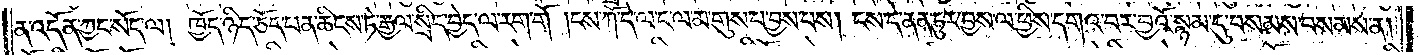ན་འདོན་ཀྱང་སོད་ལ། ཁྱོད་ཉིད་ཅོད་པན་ཆིངས་ཏེ་རྒྱལ་སྲིད་བྱེད་ལ་རག་གོ །ངས་ཀོ་དེ་ལ་ང་ལ་མ་གུས་པ་བྱས་པས། ངས་དེ་ནན་ཏུར་བྱས་ལ་ཕྱིས་དགའ་བར་བྱའོ་སྙམ་དུ་བསམས་བསམས་ན།
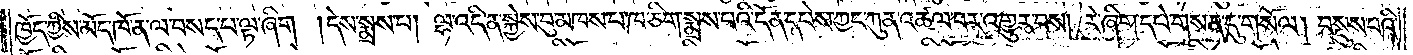ཁྱོད་ཀྱིས་མོད་ཁོ་ན་ལ་བསད་པ་ལྟ་ཞིག །དེས་སྨྲས་པ། ལྷ་འདི་ན་སྐྱེས་བུ་མཁས་པ་ཁ་ཅིག་སྨྲས་པའི་དོན་དཔེས་ཀྱང་ཀུན་འཚལ་བར་འགྱུར་བས། རེ་ཞིག་དཔེ་གསན་དུ་གསོལ། བསྡུས་པའི་
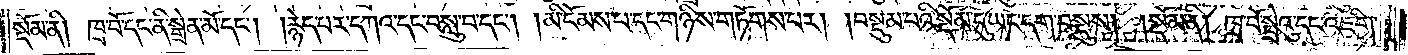སྡོམ་ནི། ཁྲ་བོ་དང་ནི་སྒྲེན་མོ་དང༌། །རྙེད་པར་དཀའ་དང་བསླུ་བ་དང༌། །མི་ངོམས་པ་དང་གཉིས་གཏོགས་པར། །བསྡུམ་པའི་སྡོམ་དུ་ཡང་དག་བསྡུས། །སྡོམ་ནི། ཁྲ་བོ་སྤྲེའུ་དང་འཇིག་
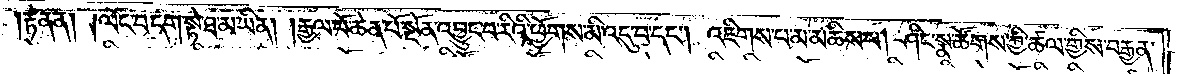རྟེན་ན། །ལོང་བདག་སྟེ་ཐ་མ་ཡིན། །རྒྱལ་པོ་ཆེན་པོ་སྔོན་འབྱུང་བ་རིའི་ཕྱོགས་མི་འདུ་བ་དང༌། འཇིགས་པ་མ་མཆིས་པ། ཤིང་སྣ་ཚོགས་ཀྱི་ཚལ་གྱིས་བརྒྱན་
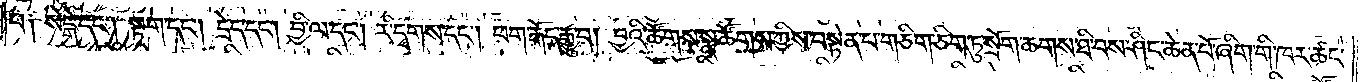པ༑ སེངྒེ་དང༌། སྟག་དང༌། དྲེད་དང༌། བྱི་ལ་དང༌། རི་དྭགས་དང༌། ཕག་རྒོད་རྒྱུ་བ། བྱའི་ཚོགས་སྣ་ཚོགས་ཀྱིས་བསྟེན་པ་གཅིག་ཅིག་ཏུ་སྲོག་ཆགས་ཐི་བས་ཤིང་ཆེན་པོ་ཞིག་གི་ཁར་ཚང་
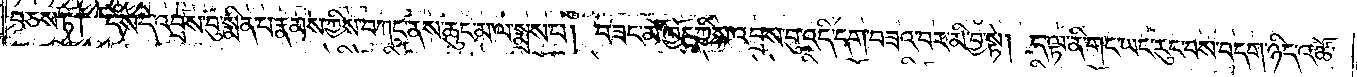བཅས་ཏེ། དེས་དེ་འབྲས་བུ་སྨིན་པ་རྣམས་ཀྱིས་བཀང་ནས་ཆུང་མ་ལ་སྨྲས་པ། བཟང་མོ་ཁྱོད་ཀྱིས་འབྲས་བུ་འདི་དག་བཟའ་བར་མི་བྱ་སྟེ། ད་ལྟ་ནི་གང་ཡང་རུང་བས་བདག་ཉིད་འཚོ་
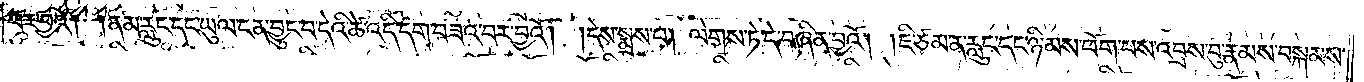བར་བྱའོ། །ནམ་རླུང་དང་ཡུལ་ངན་བྱུང་བ་དེའི་ཚེ་འདི་དག་བཟའ་བར་བྱའོ། །དེས་སྨྲས་པ། ལེགས་ཏེ་དེ་བཞིན་བྱའོ། །ཇི་ཙམ་ན་རླུང་དང་ཉི་མས་ཕོག་པས་འབྲས་བུ་རྣམས་བསྐམས་
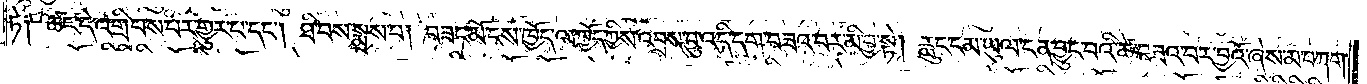ཏེ༑ ཚང་དེ་འགྲིབས་པར་གྱུར་པ་དང༌། ཐི་བས་སྨྲས་པ། བཟང་མོ་ངས་ཁྱོད་ལ་ཁྱོད་ཀྱིས་འབྲས་བུ་འདི་དག་བཟའ་བར་མི་བྱ་སྟེ། རླུང་ངམ་ཡུལ་ངན་བྱུང་བའི་ཚེ་བཟའ་བར་བྱའོ་ཞེས་མ་བཀག་
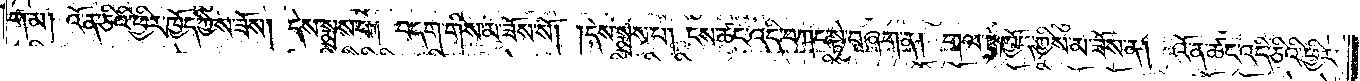གམ། འོ་ན་ཅིའི་ཕྱིར་ཁྱོད་ཀྱིས་ཟོས། དེས་སྨྲས་པ། བདག་གིས་མ་ཟོས་སོ། །དེས་སྨྲས་པ། ངས་ཚང་འདི་བཀང་སྟེ་བཞག་ན། གལ་ཏེ་ཁྱོད་ཀྱིས་མ་ཟོས་ན། འོ་ན་ཚང་འདི་ཅིའི་ཕྱིར་
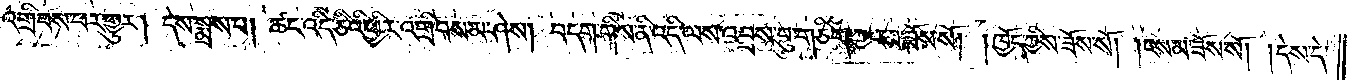འགྲིབས་པར་གྱུར། དེས་སྨྲས་པ། ཚང་འདི་ཅིའི་ཕྱིར་འགྲིབས་མ་ཤེས། བདག་གིས་ནི་འདི་ལས་འབྲས་བུ་གཅིག་ཀྱང་མ་ཟོས་སོ། །ཁྱོད་ཀྱིས་ཟོས་སོ། །ངས་མ་ཟོས་སོ། །དེས་དེ་
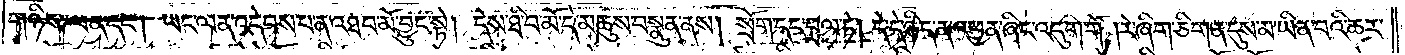གཉིས་ལན་དང༌། ཡང་ལན་འདེབས་པ་ན་འཐབ་མོ་བྱུང་སྟེ། དེས་ཐི་བ་མོ་དེ་མཆུས་བསྣུན་ནས། སྲོག་དང་བྲལ་ཏེ། དེ་དེ་ཉིད་ན་འཕྱན་ཞིང་འདུག་གོ །རེ་ཞིག་ཅིག་ན་དུས་མ་ཡིན་པའི་ཆར་
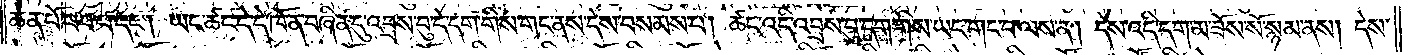ཆེན་པོ་བབ་པ་དང༌། ཡང་ཚང་དེ་དེ་ཁོ་ན་བཞིན་དུ་འབྲས་བུ་དེ་དག་གིས་གང་ནས་ངེས་བསམས་པ། ཚང་འདི་འབྲས་བུ་དག་གིས་ཡང་གང་བ་ལས་ན། དེས་འདི་དག་མ་ཟོས་སོ་སྙམ་ནས། དེས་
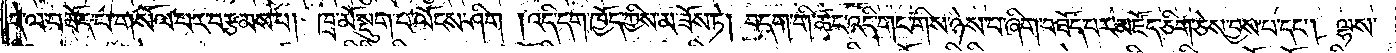དེ་ལ་བཟོད་པ་གསོལ་པར་བརྩམས་པ། ཁྲ་མོ་སྡུག་པ་ལོངས་ཤིག །འདི་དག་ཁྱོད་ཀྱིས་མ་ཟོས་ཏེ། བདག་གི་ཚང་འདི་གང་གིས་ཉེས་པ་ཞིག་བཟོད་པར་མཛོད་ཅིག་ཅེས་བྱས་པ་དང༌། ལྷས་
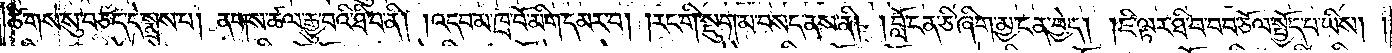ཚིགས་སུ་བཅད་དེ་སྨྲས་པ། ནགས་ཚལ་རྒྱུ་བའི་ཐི་བ་ནི། །འདབ་མ་ཁྲ་བོ་མིག་དམར་བ། །རང་གི་སྡུག་མ་བསད་ནས་ནི། །བློ་ངན་ཅི་ཞིག་མྱ་ངན་བྱེད། །ཇི་ལྟར་ཐི་བ་བབ་ཅོལ་སྤྱོད་པ་ཡིས། །
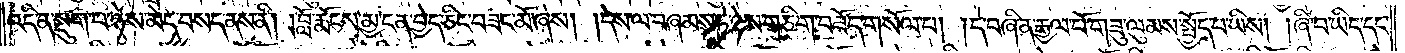འདི་ན་སྡུག་པ་ཉེས་མེད་བསད་ནས་ནི། །བློ་རྨོངས་མྱ་ངན་བྱེད་ཅིང་བཟང་མོ་ཞེས། །དེས་ལ་བཞམས་ཏེ་ཉེས་གཅིག་བཟོད་གསོལ་པ། །དེ་བཞིན་རྒྱལ་པོ་གཟུ་ལུམས་སྤྱོད་པ་ཡིས། །ཞི་བ་ཡིད་དང་
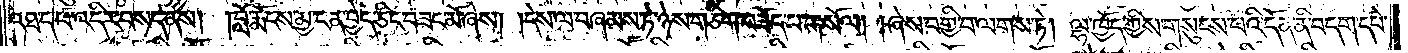འཐད་པ་འདིར་བསད་ནས། །བློ་རྨོངས་མྱ་ངན་བྱེད་ཅིང་བཟང་མོ་ཞེས། །དེས་ལ་བཞམས་ཏེ་ཉེས་གཅིག་བཟོད་པ་གསོལ། །ཞེས་བགྱི་བ་ལགས་ཏེ། ལྷ་ཁྱོད་ཀྱིས་གསུངས་པའི་དོན་ནི་བདག་དཔེ་
